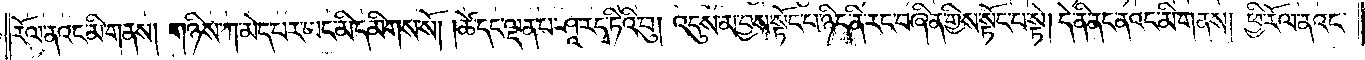རོལ་ནའང་མི་གནས། གཉིས་ཀ་མེད་པར་ཡང་མི་དམིགས་སོ། །ཚེ་དང་ལྡན་པ་ཤཱ་ར་དྭ་ཏིའི་བུ། འདུས་མ་བྱས་སྟོང་པ་ཉིད་ནི་རང་བཞིན་གྱིས་སྟོང་པ་སྟེ། དེ་ནི་ནང་ནའང་མི་གནས། ཕྱི་རོལ་ནའང་
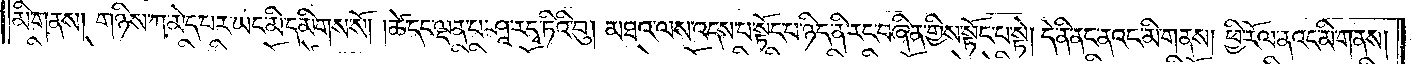མི་གནས། གཉིས་ཀ་མེད་པར་ཡང་མི་དམིགས་སོ། །ཚེ་དང་ལྡན་པ་ཤཱ་ར་དྭ་ཏིའི་བུ། མཐའ་ལས་འདས་པ་སྟོང་པ་ཉིད་ནི་རང་བཞིན་གྱིས་སྟོང་པ་སྟེ། དེ་ནི་ནང་ནའང་མི་གནས། ཕྱི་རོལ་ནའང་མི་གནས།
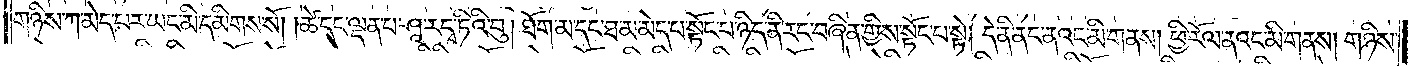གཉིས་ཀ་མེད་པར་ཡང་མི་དམིགས་སོ། །ཚེ་དང་ལྡན་པ་ཤཱ་ར་དྭ་ཏིའི་བུ། ཐོག་མ་དང་ཐ་མ་མེད་པ་སྟོང་པ་ཉིད་ནི་རང་བཞིན་གྱིས་སྟོང་པ་སྟེ། དེ་ནི་ནང་ནའང་མི་གནས། ཕྱི་རོལ་ནའང་མི་གནས། གཉིས་
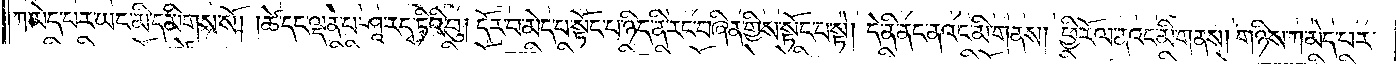ཀ་མེད་པར་ཡང་མི་དམིགས་སོ། །ཚེ་དང་ལྡན་པ་ཤཱ་ར་དྭ་ཏིའི་བུ། དོར་བ་མེད་པ་སྟོང་པ་ཉིད་ནི་རང་བཞིན་གྱིས་སྟོང་པ་སྟེ། དེ་ནི་ནང་ནའང་མི་གནས། ཕྱི་རོལ་ནའང་མི་གནས། གཉིས་ཀ་མེད་པར་
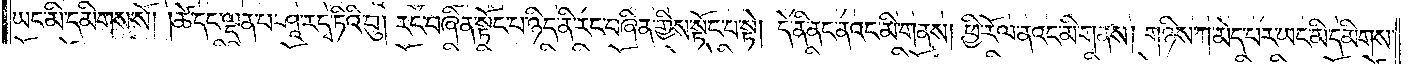ཡང་མི་དམིགས་སོ། །ཚེ་དང་ལྡན་པ་ཤཱ་ར་དྭ་ཏིའི་བུ། རང་བཞིན་སྟོང་པ་ཉིད་ནི་རང་བཞིན་གྱིས་སྟོང་པ་སྟེ། དེ་ནི་ནང་ནའང་མི་གནས། ཕྱི་རོལ་ནའང་མི་གནས། གཉིས་ཀ་མེད་པར་ཡང་མི་དམིགས་
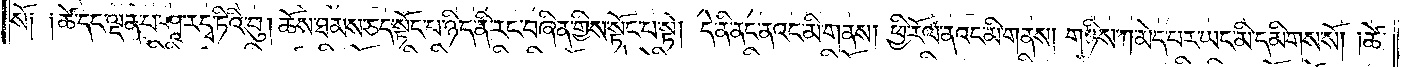སོ༏ ༏ཚེ་དང་ལྡན་པ་ཤཱ་ར་དྭ་ཏིའི་བུ། ཆོས་ཐམས་ཅད་སྟོང་པ་ཉིད་ནི་རང་བཞིན་གྱིས་སྟོང་པ་སྟེ། དེ་ནི་ནང་ནའང་མི་གནས། ཕྱི་རོལ་ནའང་མི་གནས། གཉིས་ཀ་མེད་པར་ཡང་མི་དམིགས་སོ། །ཚེ་
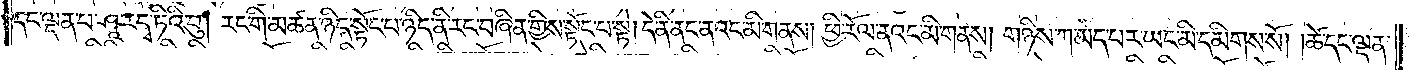དང་ལྡན་པ་ཤཱ་ར་དྭ་ཏིའི་བུ། རང་གི་མཚན་ཉིད་སྟོང་པ་ཉིད་ནི་རང་བཞིན་གྱིས་སྟོང་པ་སྟེ། དེ་ནི་ནང་ནའང་མི་གནས། ཕྱི་རོལ་ནའང་མི་གནས། གཉིས་ཀ་མེད་པར་ཡང་མི་དམིགས་སོ། །ཚེ་དང་ལྡན་
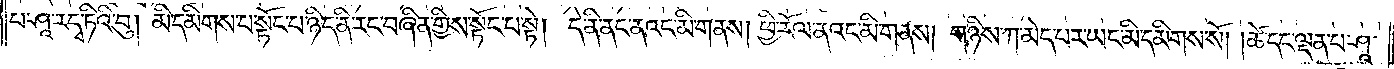པ་ཤཱ་ར་དྭ་ཏིའི་བུ། མི་དམིགས་པ་སྟོང་པ་ཉིད་ནི་རང་བཞིན་གྱིས་སྟོང་པ་སྟེ། དེ་ནི་ནང་ནའང་མི་གནས། ཕྱི་རོལ་ནའང་མི་གནས། གཉིས་ཀ་མེད་པར་ཡང་མི་དམིགས་སོ། །ཚེ་དང་ལྡན་པ་ཤཱ་
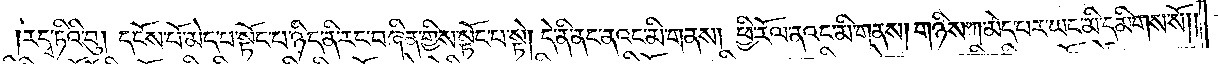ར་དྭ་ཏིའི་བུ། དངོས་པོ་མེད་པ་སྟོང་པ་ཉིད་ནི་རང་བཞིན་གྱིས་སྟོང་པ་སྟེ། དེ་ནི་ནང་ནའང་མི་གནས། ཕྱི་རོལ་ནའང་མི་གནས། གཉིས་ཀ་མེད་པར་ཡང་མི་དམིགས་སོ། །
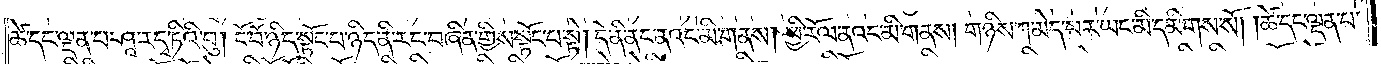ཚེ་དང་ལྡན་པ་ཤཱ་ར་དྭ་ཏིའི་བུ། ངོ་བོ་ཉིད་སྟོང་པ་ཉིད་ནི་རང་བཞིན་གྱིས་སྟོང་པ་སྟེ། དེ་ནི་ནང་ནའང་མི་གནས། ཕྱི་རོལ་ནའང་མི་གནས། གཉིས་ཀ་མེད་པར་ཡང་མི་དམིགས་སོ། །ཚེ་དང་ལྡན་པ་
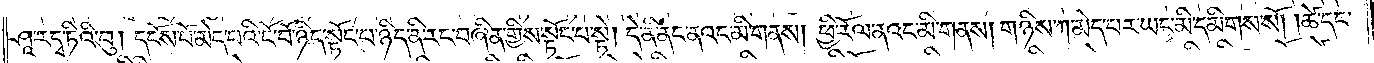ཤཱ་ར་དྭ་ཏིའི་བུ། དངོས་པོ་མེད་པའི་ངོ་བོ་ཉིད་སྟོང་པ་ཉིད་ནི་རང་བཞིན་གྱིས་སྟོང་པ་སྟེ། དེ་ནི་ནང་ནའང་མི་གནས། ཕྱི་རོལ་ནའང་མི་གནས། གཉིས་ཀ་མེད་པར་ཡང་མི་དམིགས་སོ། །ཚེ་དང་
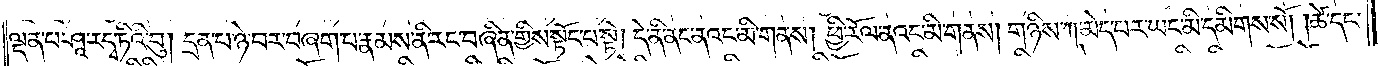ལྡན་པ་ཤཱ་ར་དྭ་ཏིའི་བུ། དྲན་པ་ཉེ་བར་བཞག་པ་རྣམས་ནི་རང་བཞིན་གྱིས་སྟོང་པ་སྟེ། དེ་ནི་ནང་ནའང་མི་གནས། ཕྱི་རོལ་ནའང་མི་གནས། གཉིས་ཀ་མེད་པར་ཡང་མི་དམིགས་སོ། །ཚེ་དང་
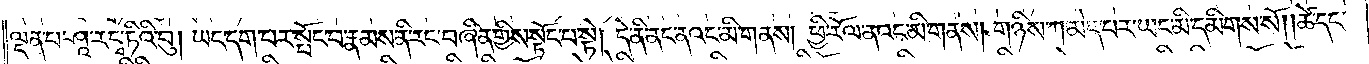ལྡན་པ་ཤཱ་ར་དྭ་ཏིའི་བུ། ཡང་དག་པར་སྤོང་བ་རྣམས་ནི་རང་བཞིན་གྱིས་སྟོང་པ་སྟེ། དེ་ནི་ནང་ནའང་མི་གནས། ཕྱི་རོལ་ནའང་མི་གནས། གཉིས་ཀ་མེད་པར་ཡང་མི་དམིགས་སོ། །ཚེ་དང་
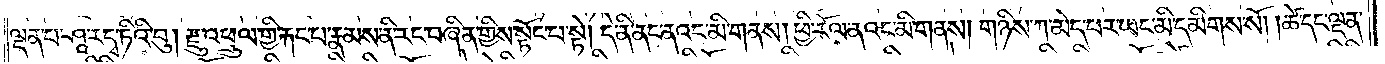ལྡན་པ་ཤཱ་ར་དྭ་ཏིའི་བུ། རྫུ་འཕྲུལ་གྱི་རྐང་པ་རྣམས་ནི་རང་བཞིན་གྱིས་སྟོང་པ་སྟེ། དེ་ནི་ནང་ནའང་མི་གནས། ཕྱི་རོལ་ནའང་མི་གནས། གཉིས་ཀ་མེད་པར་ཡང་མི་དམིགས་སོ། །ཚེ་དང་ལྡན་
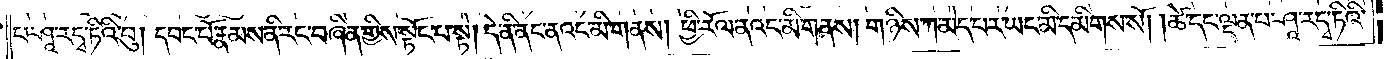པ་ཤཱ་ར་དྭ་ཏིའི་བུ། དབང་པོ་རྣམས་ནི་རང་བཞིན་གྱིས་སྟོང་པ་སྟེ། དེ་ནི་ནང་ནའང་མི་གནས། ཕྱི་རོལ་ནའང་མི་གནས། གཉིས་ཀ་མེད་པར་ཡང་མི་དམིགས་སོ། །ཚེ་དང་ལྡན་པ་ཤཱ་ར་དྭ་ཏིའི་
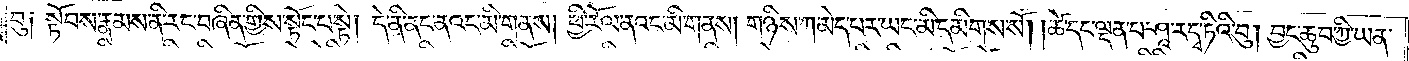བུ། སྟོབས་རྣམས་ནི་རང་བཞིན་གྱིས་སྟོང་པ་སྟེ། དེ་ནི་ནང་ནའང་མི་གནས། ཕྱི་རོལ་ནའང་མི་གནས། གཉིས་ཀ་མེད་པར་ཡང་མི་དམིགས་སོ། །ཚེ་དང་ལྡན་པ་ཤཱ་ར་དྭ་ཏིའི་བུ། བྱང་ཆུབ་ཀྱི་ཡན་
